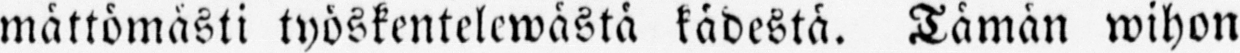mättömästi työskentelewästä kädestä. Tämän wihon
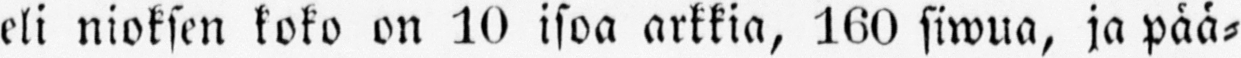eli nioksen koko on 10 isoa arkkia, 160 siwua, ja pää-
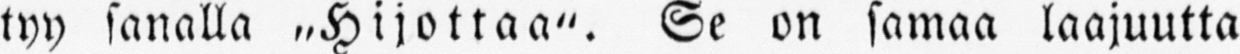tyy sanalla „Hijottaa". Se on samaa laajuutta
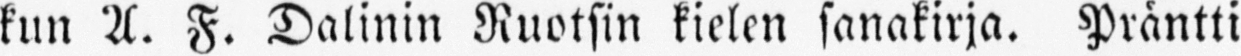kun A. F. Dalinin Ruotsin kielen sanakirja. Präntti
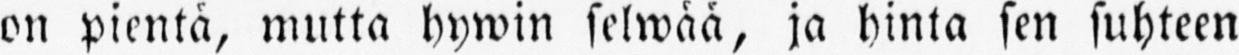on pientä, mutta hywin selwää, ja hinta sen suhteen
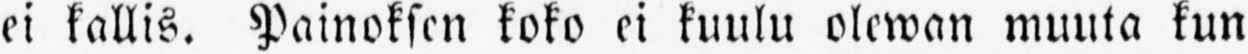ei kallis. Painoksen koko ei kuulu olewan muuta kun
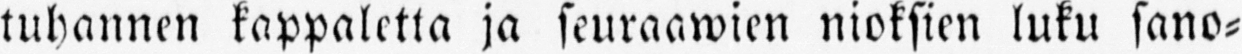tuhannen kappaletta ja seuraawien nioksien luku sano-
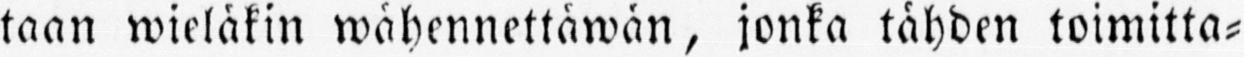taan wieläkin wähennettäwän, jonka tähden toimitta-
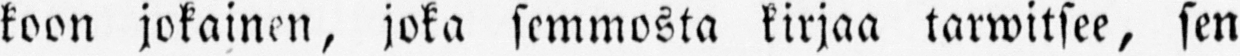koon jokainen, joka semmosta kirjaa tarwitsee, sen
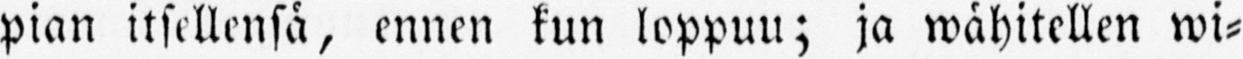pian itsellensä, ennen kun loppuu; ja wähitellen wi-
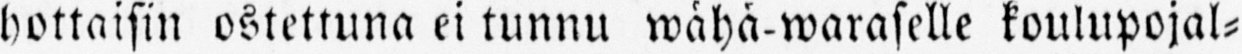hottaisin ostettuna ei tunnu wähä-waraselle koulupojal-
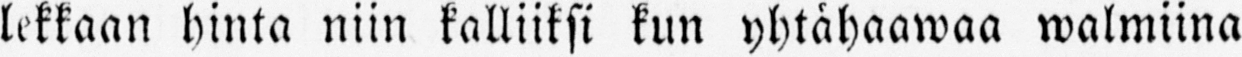lekkaan hinta niin kalliiksi kun yhtähaawaa walmiina
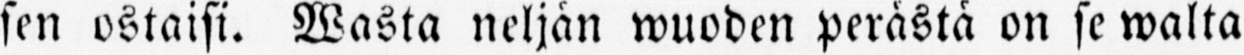sen ostaisi. Wasta neljän wuoden perästä on se walta
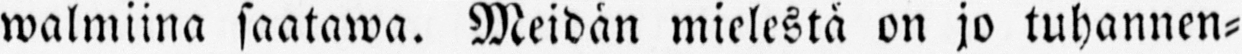walmiina saatawa. Meidän mielestä on jo tuhannen-
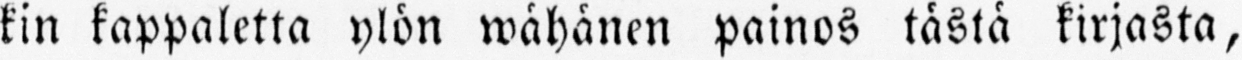kin kappaletta ylön wähänen painos tästä kirjasta,
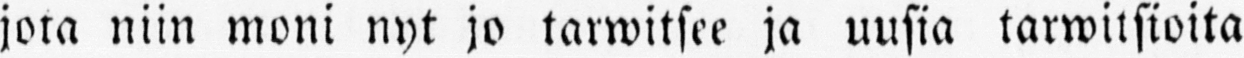jota niin moni nyt jo tarwitsee ja uusia tarwitsioita
